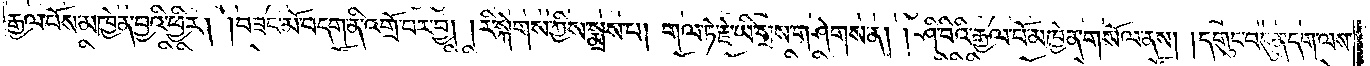རྒྱལ་པོས་མཁྱེན་བྱའི་ཕྱིར། །བཟང་མོ་བདག་ནི་འགྲོ་བར་བྱ། །རི་སྐེགས་ཀྱིས་སྨྲས་པ། གལ་ཏེ་རྗེ་ཡི་སྲས་གཤེགས་ན། །ཤི་བིའི་རྒྱལ་པོ་མཁྱེན་གསོལ་ནས། །དགུང་བདུན་དག་ལས་
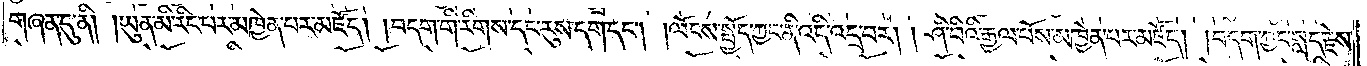གཞན་དུ་ནི། ཡུན་མི་རིང་པར་མཁྱེན་པར་མཛོད། །བདག་གི་རིགས་དང་རུས་དག་དང༌། །ལོངས་སྤྱོད་ཀྱང་ནི་འདི་འདྲ་བར། ཤི་བིའི་རྒྱལ་པོས་མཁྱེན་པར་མཛོད། །བདག་ཀྱང་སླད་རྗེས་
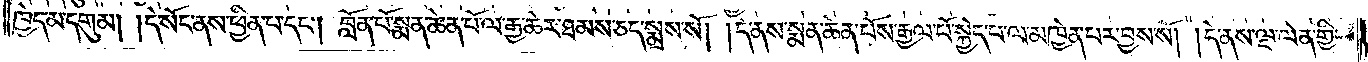ཁྱེད་མ་དགུ་མ། །དེ་སོང་ནས་ཕྱིན་པ་དང༌། བློན་པོ་སྨན་ཆེན་པོ་ལ་རྒྱ་ཆེར་ཐམས་ཅད་སྨྲས་སོ། །དེ་ནས་སྨན་ཆེན་པོས་རྒྱལ་པོ་སྐྱེད་པ་ལ་མཁྱེན་པར་བྱས་སོ། །དེ་ནས་ལྔ་ལེན་གྱི་
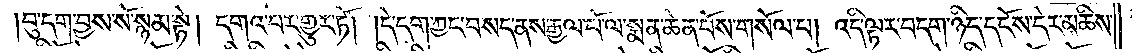བུ་དག་བྱས་སོ་སྙམ་སྟེ། དགའ་བར་གྱུར་ཏོ། །དེ་དག་ཀྱང་བསད་ནས་རྒྱལ་པོ་ལ་སྨན་ཆེན་པོས་གསོལ་པ། འདི་ལྟར་བདག་ཉིད་དངོས་དེར་མཆིས་
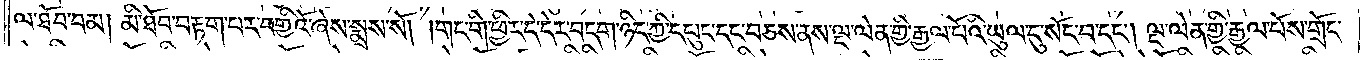ལ་ཐོབ་བམ། མི་ཐོབ་བརྟག་པར་བགྱིའོ་ཞེས་སྨྲས་སོ། །གང་གི་ཕྱིར་དེ་དེར་བདག་ཉིད་ཀྱི་དཔུང་དང་བཅས་ནས་ལྔ་ལེན་གྱི་རྒྱལ་པོའི་ཡུལ་དུ་སོང་བ་དང༌། ལྔ་ལེན་གྱི་རྒྱལ་པོས་གྲོང་
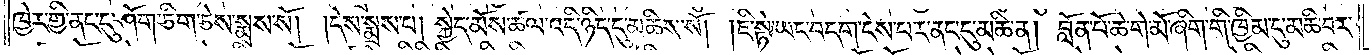ཁྱེར་གྱི་ནང་དུ་ཤོག་ཅིག་ཅེས་སྨྲས་སོ། །དེས་སྨྲས་པ། སྐྱེད་མོས་ཚལ་འདི་ཉིད་དུ་མཆིས་སོ། །ཇི་སྟེ་ཡང་བདག་ངེས་པར་ནང་དུ་མཆི་ན། བློན་པོ་ཆེ་གེ་མོ་ཞིག་གི་ཁྱིམ་དུ་མཆི་བར་
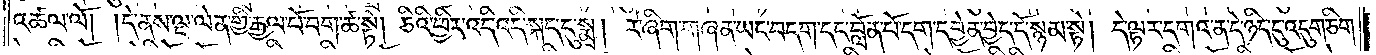འཚལ་ལོ། །དེ་ནས་ལྔ་ལེན་གྱི་རྒྱལ་པོ་བག་ཚ་སྟེ། ཅིའི་ཕྱིར་འདི་འདི་སྐད་དུ་སྨྲ། རེ་ཞིག་གཞན་ཡང་བདག་དང་བློན་པོ་དག་དབྱེན་བྱེད་དོ་སྙམ་སྟེ། དེ་ལྟར་དགའ་ན་དེ་ཉིད་དུ་འདུག་ཅིག་
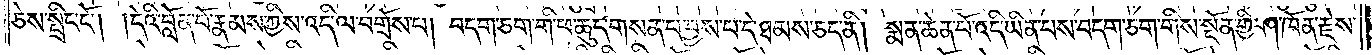ཅེས་སྤྲིང་ངོ༌། །དེའི་བློན་པོ་རྣམས་ཀྱིས་འདི་ལ་བགྲོས་པ། བདག་ཅག་གི་ཕ་ཆུད་གསན་པ་བྱས་པ་དེ་ཐམས་ཅད་ནི། སྨན་ཆེན་པོ་འདི་ཡིན་པས་བདག་ཅག་གིས་སྔོན་གྱི་ཤ་ཁོན་རྗེས་
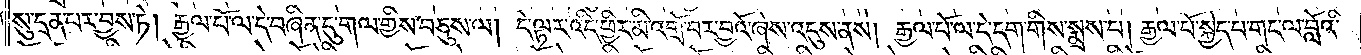སུ་དྲན་པར་བྱས་ཏེ། རྒྱལ་པོ་ལ་དེ་བཞིན་དུ་གལ་གྱིས་བཅུས་ལ། དེ་ལྟར་འདི་ཕྱིར་མི་འགྲོ་བར་བྱའོ་ཞེས་འདུས་ནས། རྒྱལ་པོ་ལ་དེ་དག་གིས་སྨྲས་པ། རྒྱལ་པོ་སྐྱེད་པ་གང་ལ་བློའི་
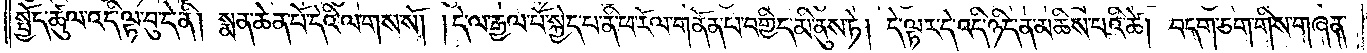སྤྱོད་ཚུལ་འདི་ལྟ་བུ་དེ་ནི། སྨན་ཆེན་པོ་དེའི་ལགས་སོ། །དེ་ལ་རྒྱལ་པོ་སྐྱེད་པ་ནི་ཕ་རོལ་གནོན་པ་བགྱིད་མི་ནུས་ཏེ། དེ་ལྟར་དེ་འདི་ཉིད་ན་མཆིས་པའི་ཚེ། བདག་ཅག་གིས་གཞན་
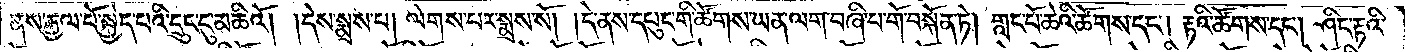ནས་རྒྱལ་པོ་སྐྱེད་པའི་དྲུང་དུ་མཆིའོ། །དེས་སྨྲས་པ། ལེགས་པར་སྨྲས་སོ། །དེ་ནས་དཔུང་གི་ཚོགས་ཡན་ལག་བཞི་པ་གོ་བསྐོན་ཏེ། གླང་པོ་ཆེའི་ཚོགས་དང༌། རྟའི་ཚོགས་དང༌། ཤིང་རྟའི་
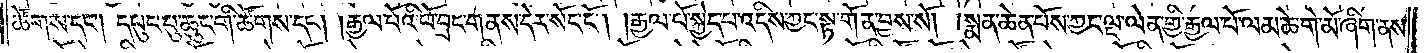ཚོགས་དང༌། དཔུང་བུ་ཆུང་གི་ཚོགས་དང༌། །རྒྱལ་པོའི་ཕོ་བྲང་གནས་དེར་སོང་ངོ༌། །རྒྱལ་པོ་སྐྱེད་པ་འདིས་ཀྱང་སྟ་གོན་བྱས་སོ། །སྨན་ཆེན་པོས་ཀྱང་ལྔ་ལེན་གྱི་རྒྱལ་པོ་ལམ་ཆེ་གེ་མོ་ཞིག་ནས་
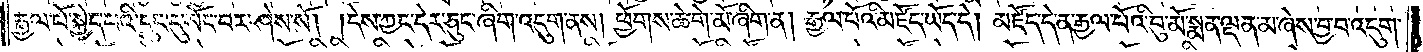རྒྱལ་པོ་སྐྱེད་པའི་དྲུང་དུ་སོང་བར་ཤེས་སོ། །དེས་ཀྱང་དེར་ཅུང་ཞིག་འདུག་ནས། ཕྱོགས་ཆེ་གེ་མོ་ཞིག་ན། རྒྱལ་པོའི་མཛོད་ཡོད་དེ། མཛོད་དེ་ན་རྒྱལ་པོའི་བུ་མོ་སྨན་ལྡན་མ་ཞེས་བྱ་བ་འདུག་
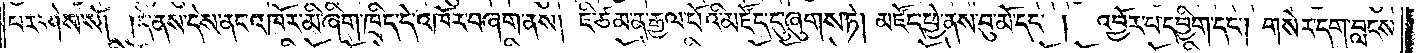པར་ཤེས་སོ། །དེ་ནས་དེས་ནང་འཁོར་མི་ཞིག་ཁྲིད་དེ་འཁོར་བཞག་ནས། ཇི་ཙམ་ན་རྒྱལ་པོའི་མཛོད་དུ་ཞུགས་ཏེ། མཛོད་ཕྱེ་ནས་བུ་མོ་དང༌། འབྱོར་པ་དབྱིག་དང༌། གསེར་དག་བླངས་
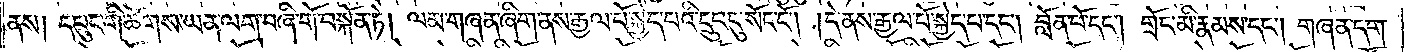ནས། དཔུང་གི་ཚོགས་ཡན་ལག་བཞི་གོ་བསྐོན་ཏེ། ལམ་གཞན་ཞིག་ནས་རྒྱལ་པོ་སྐྱེད་པའི་དྲུང་དུ་སོང་ངོ༌། །དེ་ནས་རྒྱལ་པོ་སྐྱེད་པ་དང༌། བློན་པོ་དང༌། གྲོང་མི་རྣམས་དང༌། གཞན་དག་
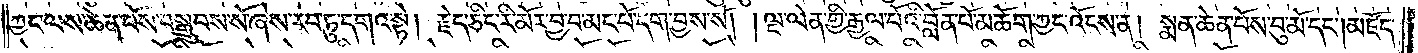ཀྱང་ལས་ཆེན་པོས་བསྒྲུབས་སོ་ཞེས་རབ་ཏུ་དགའ་སྟེ། རྗེད་ཅིང་རི་མོར་བྱ་བ་མང་པོ་དག་བྱས་སོ། །ལྔ་ལེན་གྱི་རྒྱལ་པོའི་བློན་པོ་མཆོག་ཀྱང་འོངས་ན། སྨན་ཆེན་པོས་བུ་མོ་དང༌། མཛོད་
